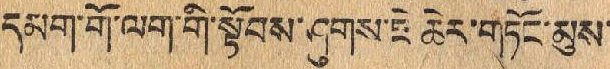དམག་གོ་ལག་གི་སྟོབས་ཤུགས་ཇེ་ཆེར་གཏོང་མུས་
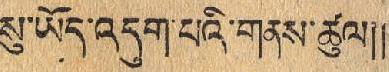སུ་ཡོད་འདུག་པའི་གནས་ཚུལ།།
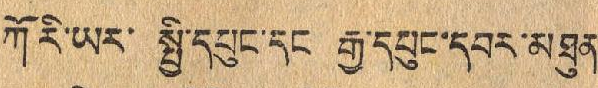ཀོ་རི་ཡར་ སྤྱི་དཔུང་དང རྒྱ་དཔུང་དབར་མཐུན་
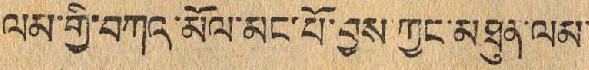ལམ་གྱི་བཀའ་མོལ་མང་པོ་བྱས་ཀྱང་མཐུན་ལམ་
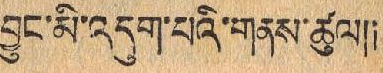བྱུང་མི་འདུག་པའི་གནས་ཚུལ།།
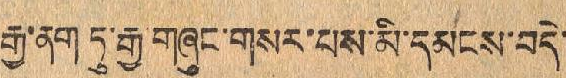རྒྱ་ནག་ཏུ་རྒྱ་གཞུང་གསར་པས་མི་དམངས་བདེ་
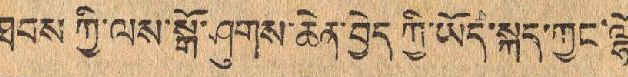ཐབས་ཀྱི་ལས་སྒོ་ཤུགས་ཆེན་བྱེད་ཀྱི་ཡོད་སྐད་ཀྱང་ལྷོ་
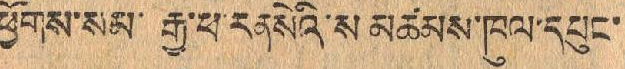ཕྱོགས་སམ་ རྒྱ་ཕ་རནསེའི་ས་མཚམས་ཁུལ་དཔུང་
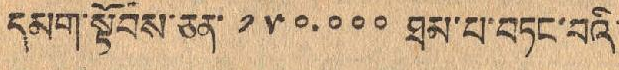དམག་སྟོབས་ཅན་ ༡༥༠,༠༠༠ ཐམ་པ་བཏང་བའི་
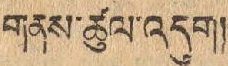གནས་ཚུལ་འདུག།
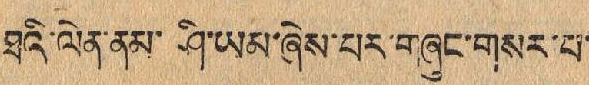ཐའི་ལེན་ནས་ ཤི་ཡམ་ཞེས་པར་གཞུང་གསར་པ་
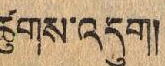ཚུགས་འདུག།
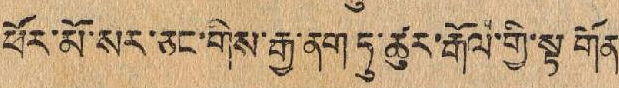ཕོར་མོ་སར་ཅང་གིས་རྒྱ་ནག ཏུ་ཚུར་རྒོལ་གྱི་སྟ་གོན་
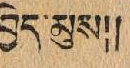བྱེད་མུས།།
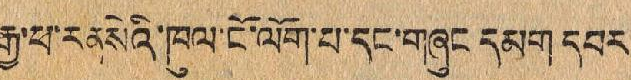རྒྱ་ཕ་རནསེའི་ཁུལ་ངོ་ལོག་པ་དང་གཞུང དམག དབར་
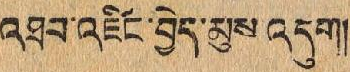འཐབ་འཛིང་བྱེད་མུས་འདུག།
